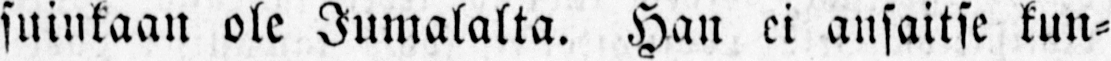suinkaan ole Jumalalta. Han ei ansaitse kun-
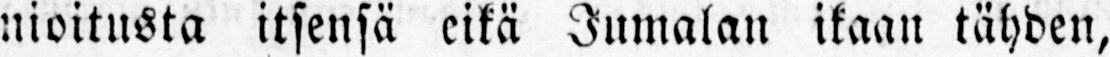nioitusta itsensä eikä Jumalan ikään tähden,
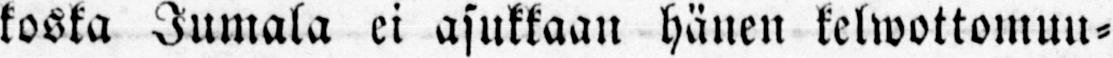koska Jumala ei asukkaan hänen kelwottomuu-
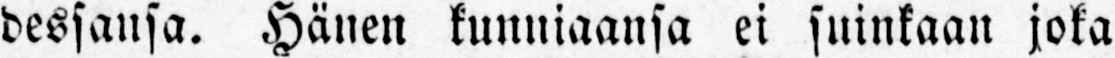dessansa. Hänen kunniaansa ei suinkaan joka
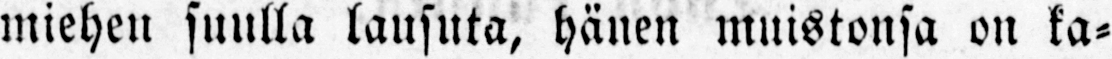miehen suulla lausuta, hänen muistonsa on ka-
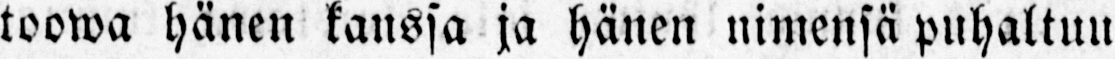toowa hänen kanssa ja hänen nimensä puhaltuu
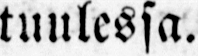tuulessa.
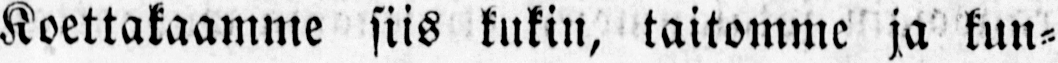Koettakaamme siis kukin, taitomme ja kun-
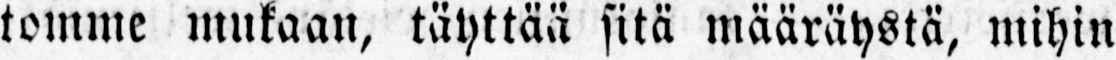tomme mukaan, täyttää sitä määräystä, mihin
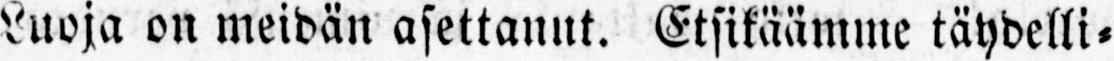Luoja on meidän asettanut. Etsikäämme täydelli-
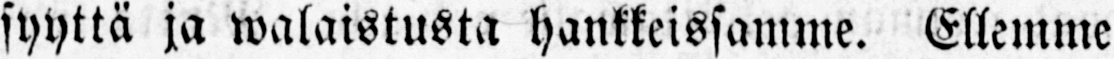syyttä ja walaistusta hankkeissamme. Ellemme
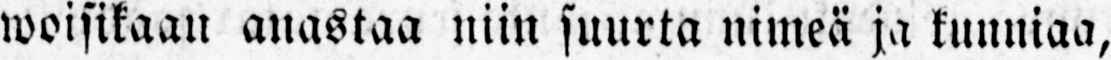woisikaan anastaa niin suurta nimeä ja kunniaa,
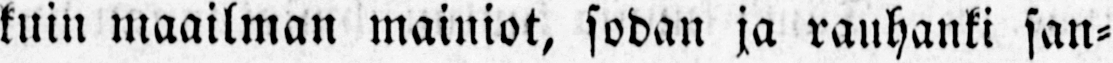kuin maailman mainiot, sodan ja rauhanki san-
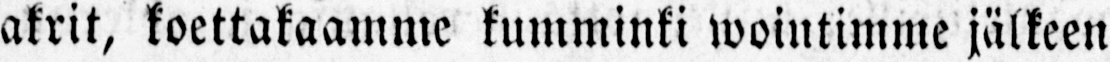skrit, koettakaamme kumminki wointimme jälkeen
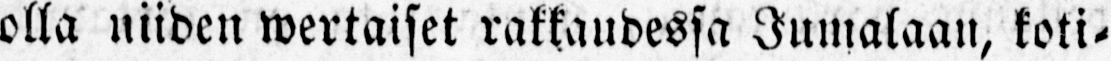olla niiden wertaiset rakkaudessa Jumalaan, koti-
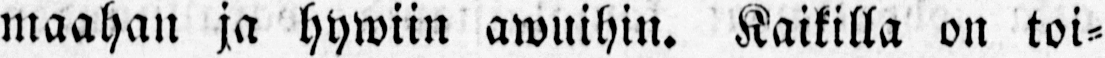maahan ja hywiin awuihin. Kaikilla on toi-
